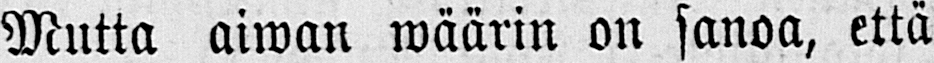Mutta aiwan wäärin on sanoa, että
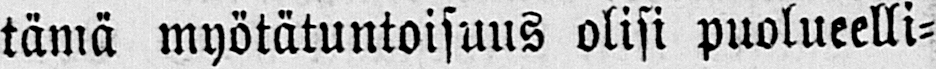tämä myötätuntoisuus olisi puolueelli-
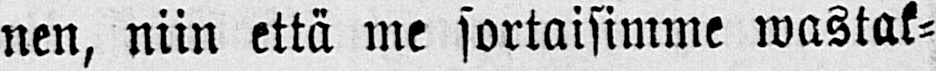nen, niin että me sortaisimme wastak-
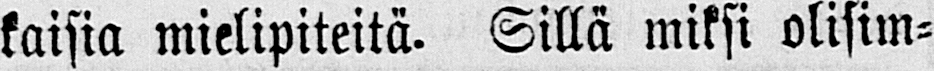kaisia mielipiteitä. Sillä miksi olisim-
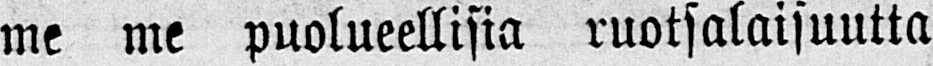me me puolueellisia ruotsalaisuutta
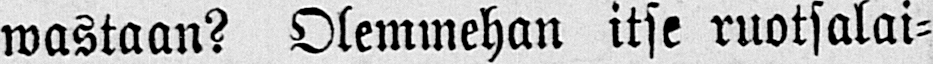wastaan? Olemmehan itse ruotsalai-
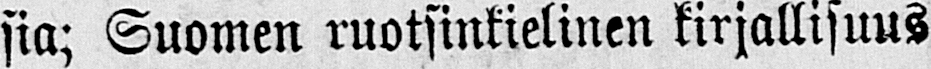sia; Suomen ruotsinkielinen kirjallisuus
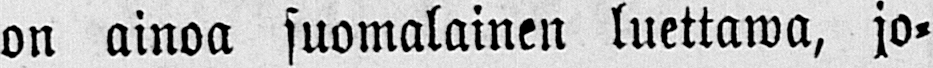on ainoa suomalainen luettawa, jo-
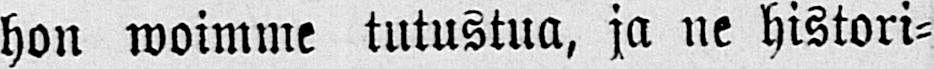hon woimme tutustua, ja ne histori-
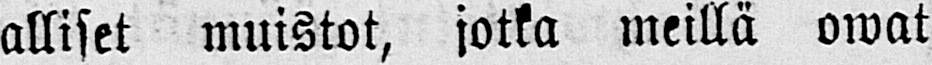alliset muistot, jotka meillä owat
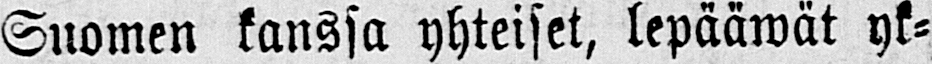Suomen kanssa yhteiset, lepääwät yk-
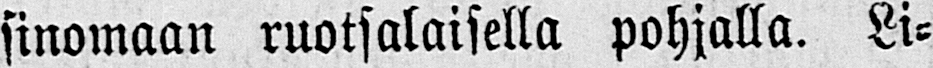sinomaan ruotsalaisella pohjalla. Li-
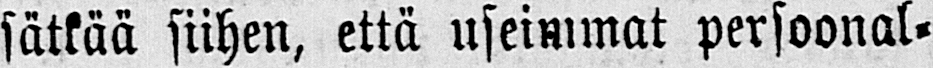sätkää siihen, että useimmat persoonal-
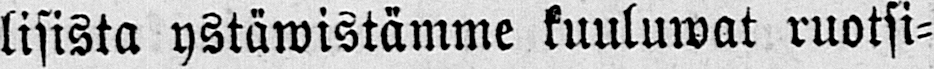lisista ystäwistämme kuuluwat ruotsi-
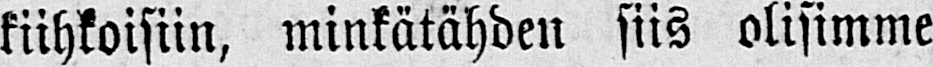kiihkoisiin, minkätähden siis olisimme
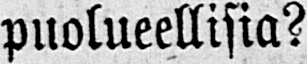puolueellisia?
